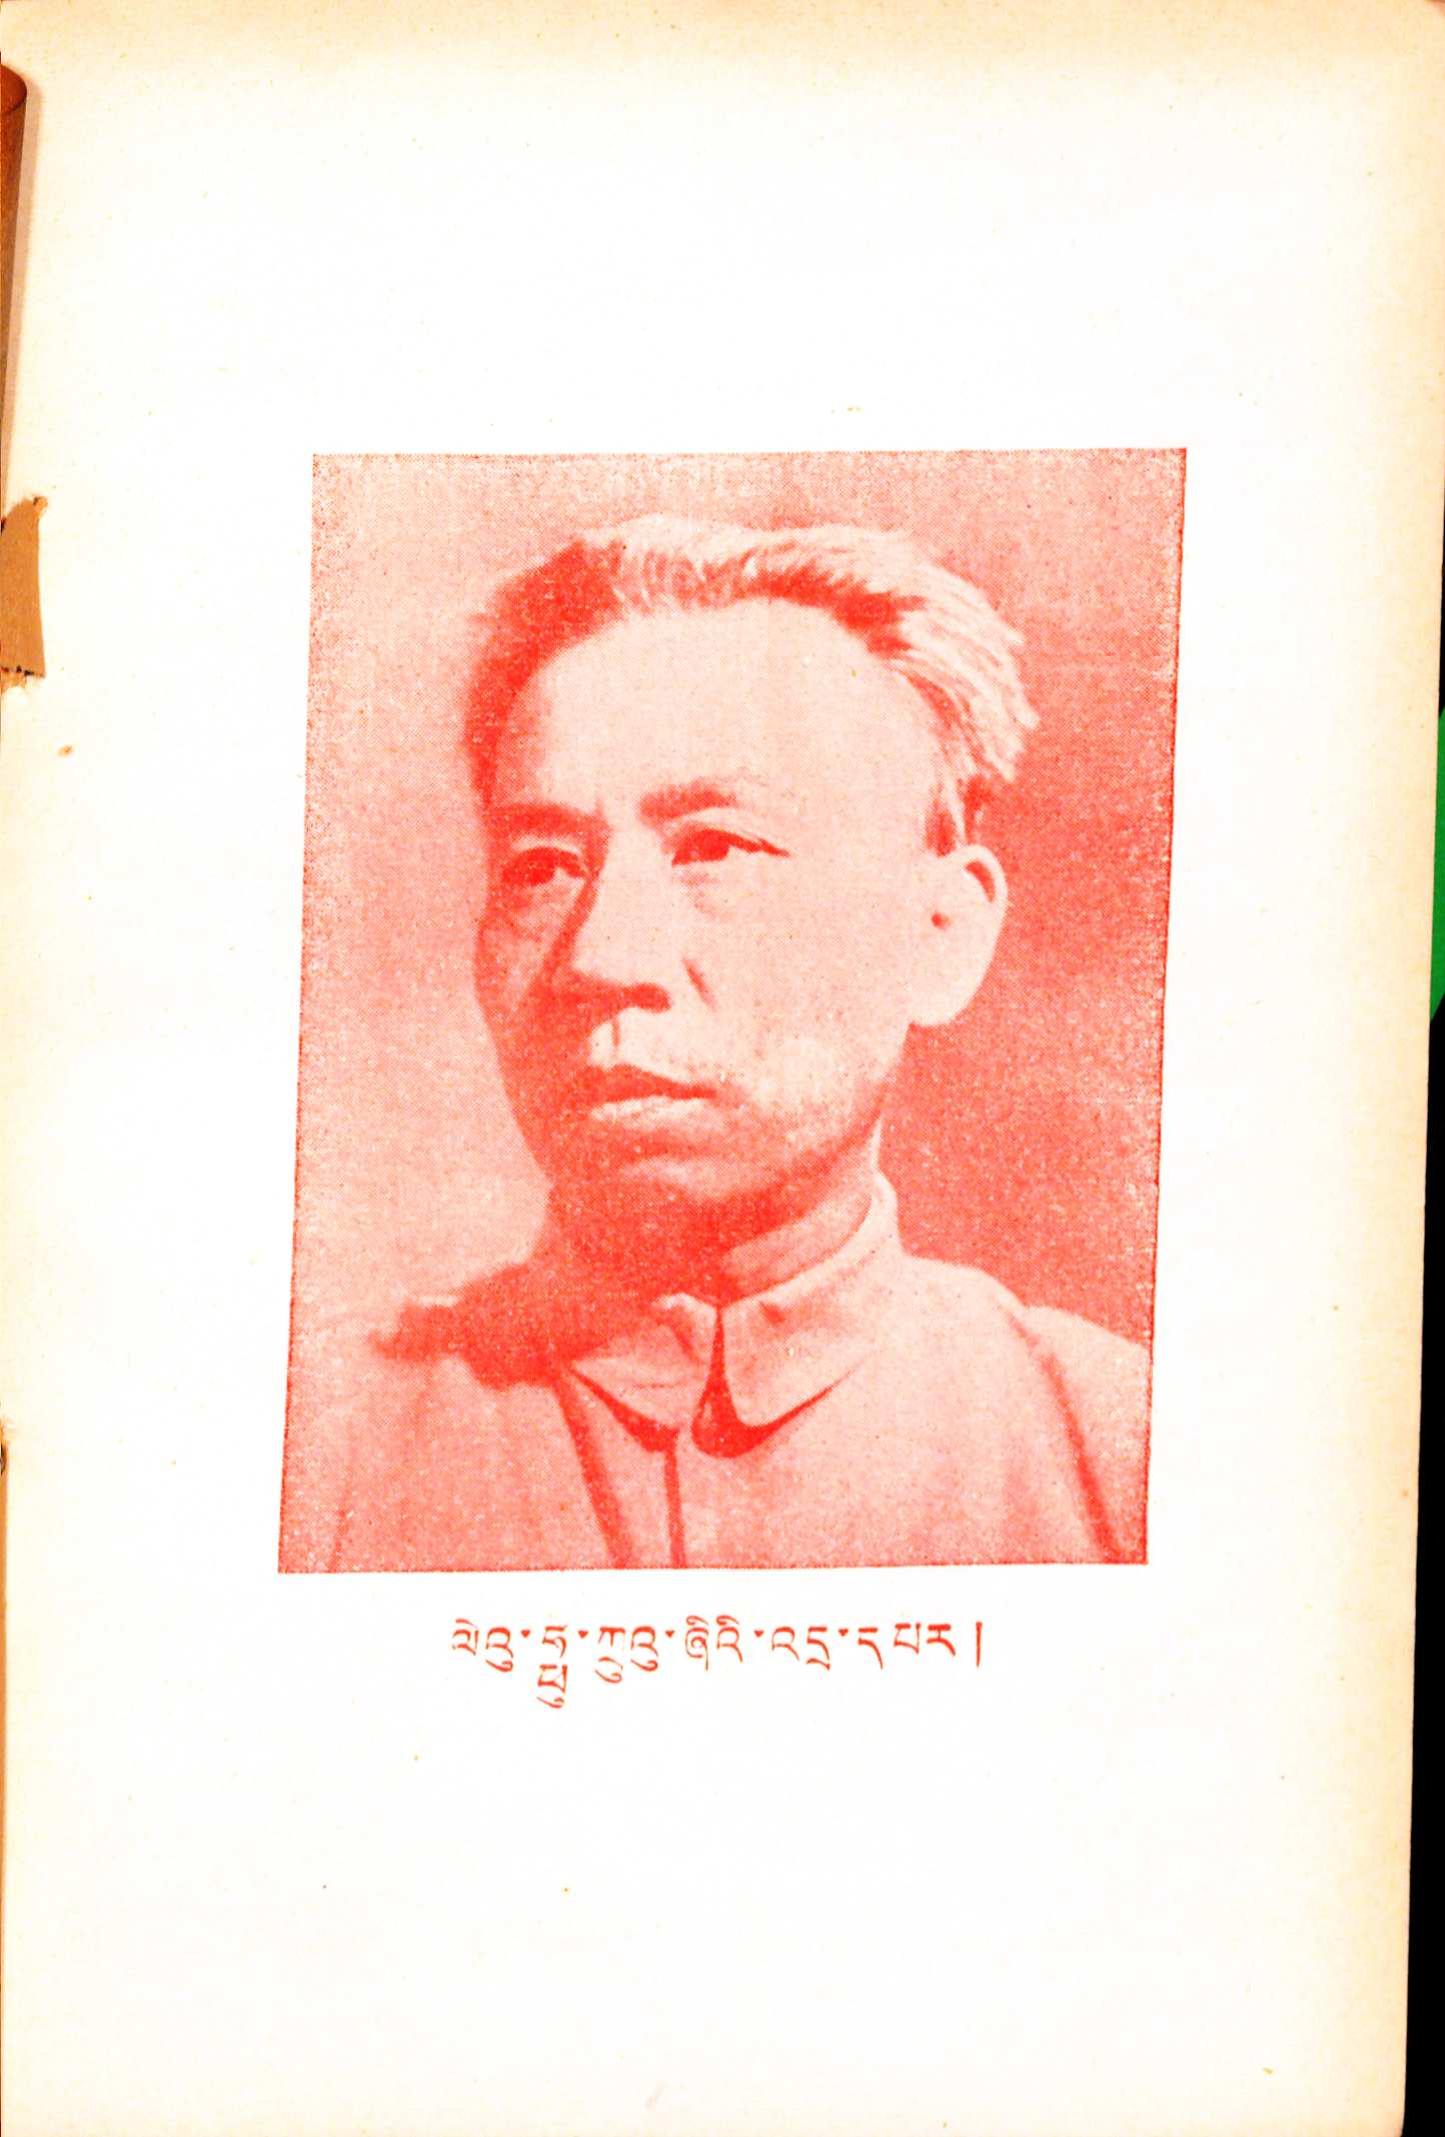ལེའུ་ཧྥུ་ཀྲུའུ་ཞིའི་འདྲ་དཔར །
